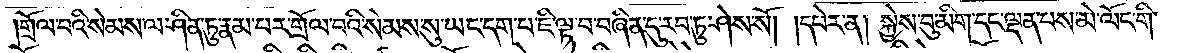།གྲོལ་བའི་སེམས་ལ་ཤིན་ཏུ་རྣམ་པར་གྲོལ་བའི་སེམས་སུ་ཡང་དག་པ་ཇི་ལྟ་བ་བཞིན་དུ་རབ་ཏུ་ཤེས་སོ། །དཔེར་ན། སྐྱེས་བུ་མིག་དང་ལྡན་པས་མེ་ལོང་གི་
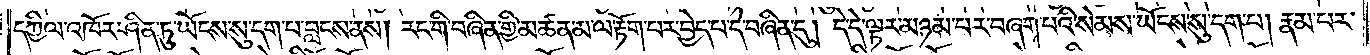དཀྱིལ་འཁོར་ཤིན་ཏུ་ཡོངས་སུ་དག་པར་བླངས་ནས། རང་གི་བཞིན་གྱི་མཚན་མ་ལ་རྟོག་པར་བྱེད་པ་དེ་བཞིན་དུ། དེ་དེ་ལྟར་མཉམ་པར་བཞག་པའི་སེམས་ཡོངས་སུ་དག་པ། རྣམ་པར་
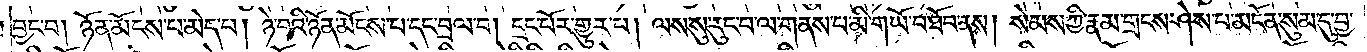བྱང་བ། ཉོན་མོངས་པ་མེད་པ། ཉེ་བའི་ཉོན་མོངས་པ་དང་བྲལ་བ། དྲང་པོར་གྱུར་པ། ལས་སུ་རུང་བ་ལ་གནས་པ་མི་གཡོ་བ་ཐོབ་ནས། སེམས་ཀྱི་རྣམ་གྲངས་ཤེས་པ་མངོན་སུམ་དུ་བྱ་
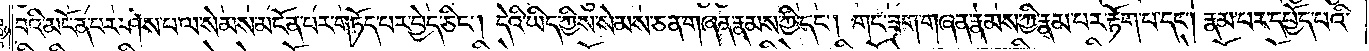བའི་མངོན་པར་ཤེས་པ་ལ་སེམས་མངོན་པར་གཏོད་པར་བྱེད་ཅིང༌། དེའི་ཡིད་ཀྱིས་སེམས་ཅན་གཞན་རྣམས་ཀྱི་དང༌། གང་ཟག་གཞན་རྣམས་ཀྱི་རྣམ་པར་རྟོག་པ་དང༌། རྣམ་པར་དཔྱོད་པའི་
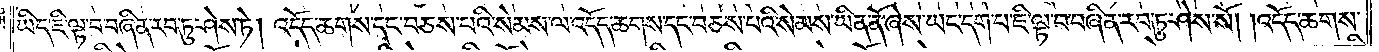ཡིད་ཇི་ལྟ་བ་བཞིན་རབ་ཏུ་ཤེས་ཏེ། འདོད་ཆགས་དང་བཅས་པའི་སེམས་ལ་འདོད་ཆགས་དང་བཅས་པའི་སེམས་ཡིན་ནོ་ཞེས་ཡང་དག་པ་ཇི་ལྟ་བ་བཞིན་རབ་ཏུ་ཤེས་སོ། །འདོད་ཆགས་
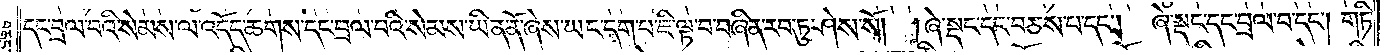དང་བྲལ་བའི་སེམས་ལ་འདོད་ཆགས་དང་བྲལ་བའི་སེམས་ཡིན་ནོ་ཞེས་ཡང་དག་པ་ཇི་ལྟ་བ་བཞིན་རབ་ཏུ་ཤེས་སོ། །ཞེ་སྡང་དང་བཅས་པ་དང༌། ཞེ་སྡང་དང་བྲལ་བ་དང༌། གཏི་
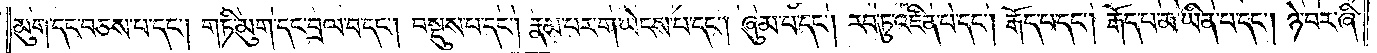མུག་དང་བཅས་པ་དང༌། གཏི་མུག་དང་བྲལ་བ་དང༌། བསྡུས་པ་དང༌། རྣམ་པར་གཡེངས་པ་དང༌། ཞུམ་པ་དང༌། རབ་ཏུ་འཛིན་པ་དང༌། རྒོད་པ་དང༌། རྒོད་པ་མ་ཡིན་པ་དང༌། ཉེ་བར་ཞི་
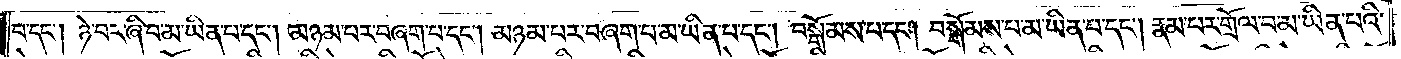པ་དང༌། ཉེ་བར་ཞི་བ་མ་ཡིན་པ་དང༌། མཉམ་པར་བཞག་པ་དང༌། མཉམ་པར་བཞག་པ་མ་ཡིན་པ་དང༌། བསྒོམས་པ་དང༌། བསྒོམས་པ་མ་ཡིན་པ་དང༌། རྣམ་པར་གྲོལ་བ་མ་ཡིན་པའི་
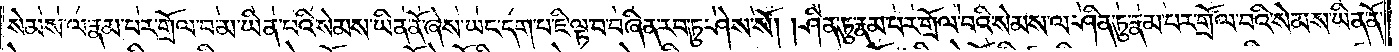སེམས་ལ་རྣམ་པར་གྲོལ་བ་མ་ཡིན་པའི་སེམས་ཡིན་ནོ་ཞེས་ཡང་དག་པ་ཇི་ལྟ་བ་བཞིན་རབ་ཏུ་ཤེས་སོ། །ཤིན་ཏུ་རྣམ་པར་གྲོལ་བའི་སེམས་ལ་ཤིན་ཏུ་རྣམ་པར་གྲོལ་བའི་སེམས་ཡིན་ནོ་
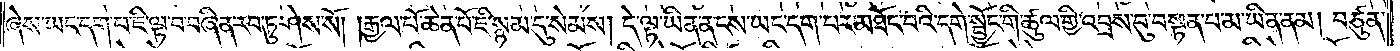ཞེས་ཡང་དག་པ་ཇི་ལྟ་བ་བཞིན་རབ་ཏུ་ཤེས་སོ། །རྒྱལ་པོ་ཆེན་པོ་ཇི་སྙམ་དུ་སེམས། དེ་ལྟ་ཡིན་ན་ངས་ཡང་དག་པར་མཐོང་བའི་དགེ་སྦྱོང་གི་ཚུལ་གྱི་འབྲས་བུ་བསྟན་པ་མ་ཡིན་ནམ། བཙུན་
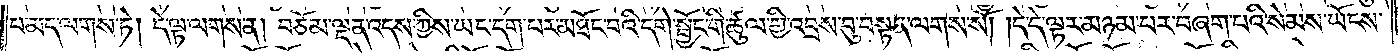པ་མད་ལགས་ཏེ། དེ་ལྟ་ལགས་ན། བཅོམ་ལྡན་འདས་ཀྱིས་ཡང་དག་པར་མཐོང་བའི་དགེ་སྦྱོང་གི་ཚུལ་གྱི་འབྲས་བུ་བསྟན་ལགས་སོ། །དེ་དེ་ལྟར་མཉམ་པར་བཞག་པའི་སེམས་ཡོངས་
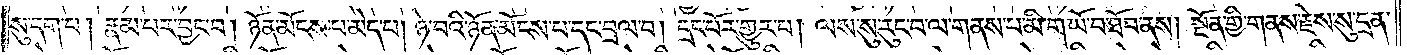སུ་དག་པ། རྣམ་པར་བྱང་བ། ཉོན་མོངས་པ་མེད་པ། ཉེ་བའི་ཉོན་མོངས་པ་དང་བྲལ་བ། དྲང་པོར་གྱུར་པ། ལས་སུ་རུང་བ་ལ་གནས་པ་མི་གཡོ་བ་ཐོབ་ནས། སྔོན་གྱི་གནས་རྗེས་སུ་དྲན་
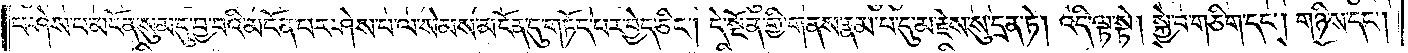པ་ཤེས་པ་མངོན་སུམ་དུ་བྱ་བའི་མངོན་པར་ཤེས་པ་ལ་སེམས་མངོན་དུ་གཏོད་པར་བྱེད་ཅིང༌། དེ་སྔོན་གྱི་གནས་རྣམ་པ་དུ་མ་རྗེས་སུ་དྲན་ཏེ། འདི་ལྟ་སྟེ། སྐྱེ་བ་གཅིག་དང༌། གཉིས་དང༌།
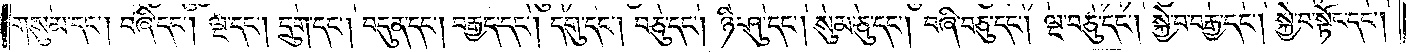གསུམ་དང༌། བཞི་དང༌། ལྔ་དང༌། དྲུག་དང༌། བདུན་དང༌། བརྒྱད་དང༌། དགུ་དང༌། བཅུ་དང༌། ཉི་ཤུ་དང༌། སུམ་ཅུ་དང༌། བཞི་བཅུ་དང༌། ལྔ་བཅུ་དང༌། སྐྱེ་བ་བརྒྱ་དང༌། སྐྱེ་བ་སྟོང་དང༌།
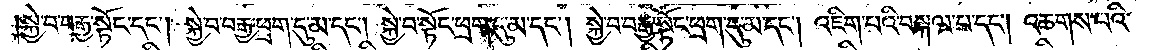སྐྱེ་བ་བརྒྱ་སྟོང་དང༌། སྐྱེ་བ་བརྒྱ་ཕྲག་དུ་མ་དང༌། སྐྱེ་བ་སྟོང་ཕྲག་དུ་མ་དང༌། སྐྱེ་བ་བརྒྱ་སྟོང་ཕྲག་དུ་མ་དང༌། འཇིག་པའི་བསྐལ་པ་དང༌། འཆགས་པའི་
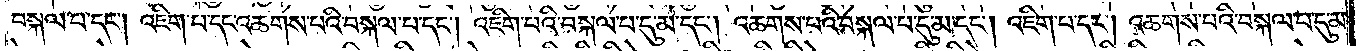བསྐལ་པ་དང༌། འཇིག་པ་དང་འཆགས་པའི་བསྐལ་པ་དང༌། འཇིག་པའི་བསྐལ་པ་དུ་མ་དང༌། འཆགས་པའི་བསྐལ་པ་དུ་མ་དང༌། འཇིག་པ་དང༌། འཆགས་པའི་བསྐལ་པ་དུ་མ་
